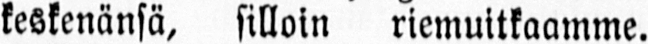keskenänsä, silloin riemuitkaamme.
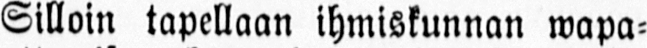Silloin tapellaan ihmiskunnan wapa-
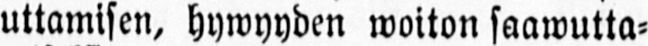uttamisen, hywyyden woiton saawutta-
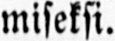miseksi.
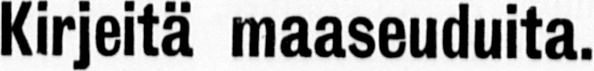Kirjeitä maaseuduita.
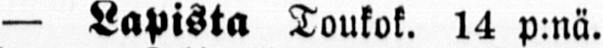— Lapista Toukok. 14 p:nä.
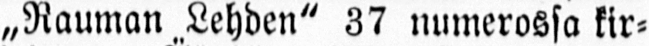„Rauman Lehden" 37 numerossa kir-
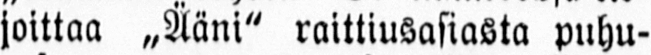joittaa „Ääni" raittiusasiasta puhu-
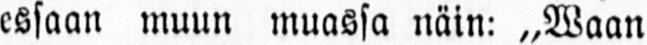essaan muun muassa näin: „Waan
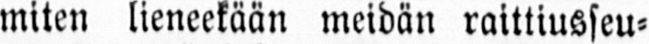miten lieneekään meidän raittiusseu-
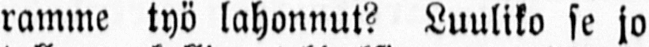ramme työ lahonnut? Luuliko se jo
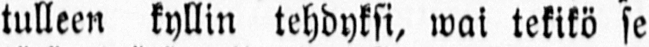tulleen kyllin tehdyksi, wai tekikö se
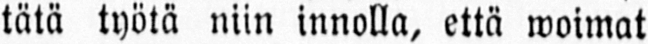tätä työtä niin innolla, että woimat
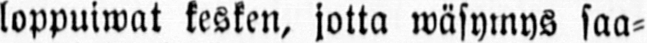loppuiwat kesken, jotta wäsymys saa-
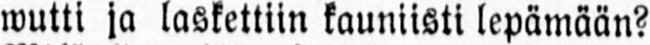wutti ja laskettiin kauniisti lepämään?
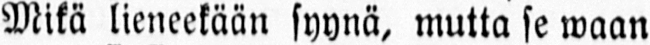Mikä lieneekään syynä, mutta se waan
